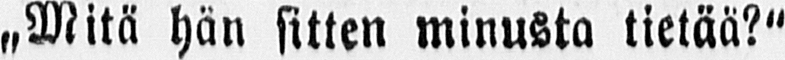˶Mitä hän sitten minusta tietää?"
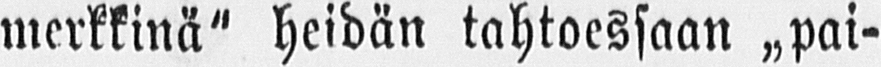merkkinä" heidän tahtoessaan ˶pai-
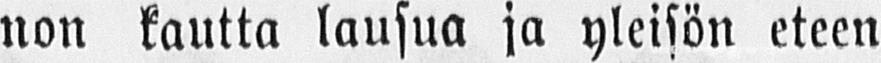non kautta lausua ja yleisön eteen
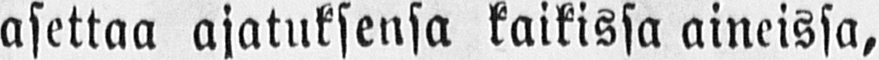asettaa ajatuksensa kaikissa aineissa,
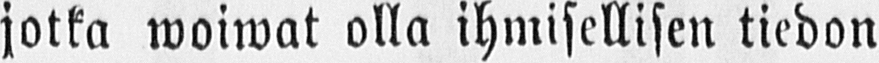jotka woiwat olla ihmisellisen tiedon
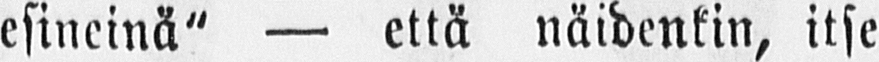esineinä" — että näidenkin, itse
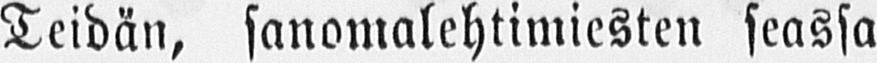Teidän, sanomalehtimiesten seassa
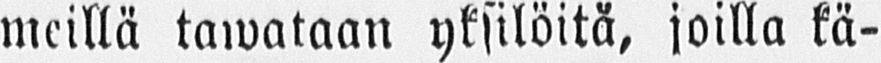meillä tawattaan yksilöitä, joilla kä-
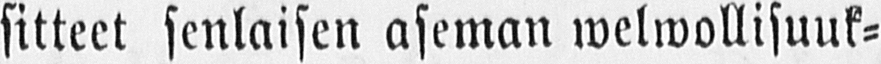sitteet senlaisen aseman welwollisuuk-
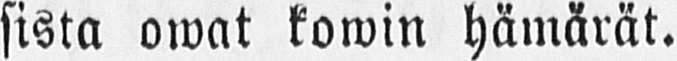sista owat kowin hämärät.
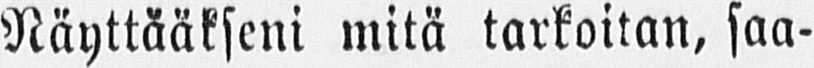Näyttääkseni mitä tarkoitan, saa-
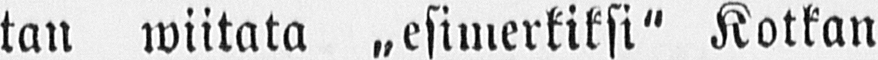tan wiitata ˶esimerkiksi" Kotkan
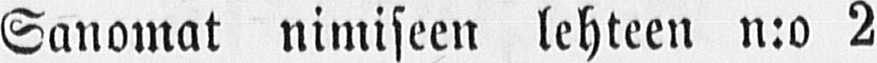Sanomat nimiseen lehteen n:o 2
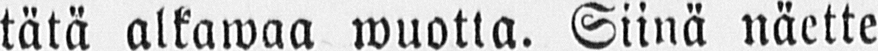tätä alkawaa wuotta. Siinä näette
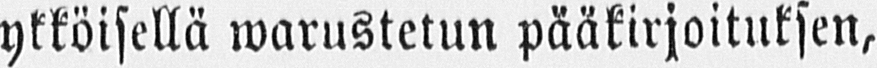ykköisellä warustetun pääkirjoituksen,
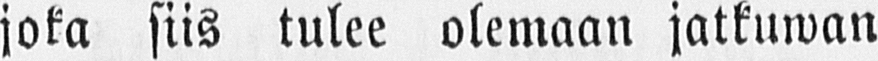joka siis tulee olemaan jatkuwan
